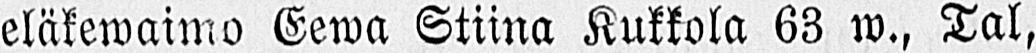eläkewaimo Eewa Stiina Kukkola 63 w., Tal,
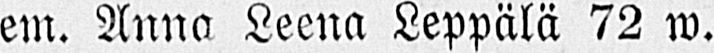em. Anna Leena Leppälä 72 w.
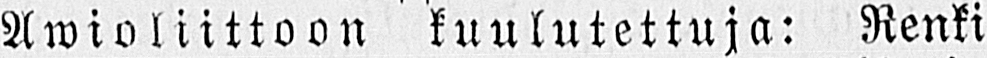Awioliittoon kuulutettuja: Renki
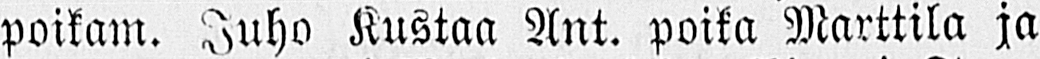poikain. Juho Kustaa Ant. poika Marttila ja
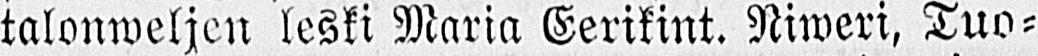talonweljen leski Maria Eerikint. Niweri, Tuo-
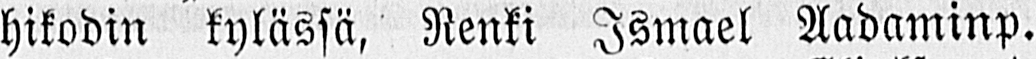hikodin kylässä, Renki Ismael Aadaminp.
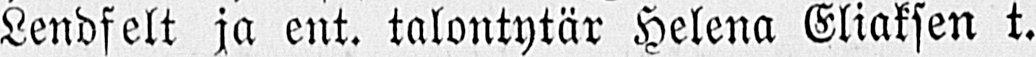Lendfelt ja ent. talontytär Helena Eliaksen t.
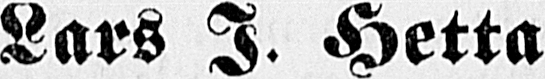Lars J. Hetta.
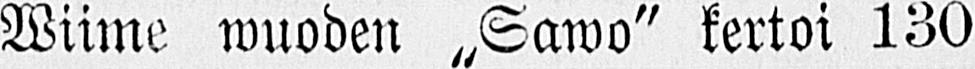Wiime wuoden „Sawo" kertoi 130
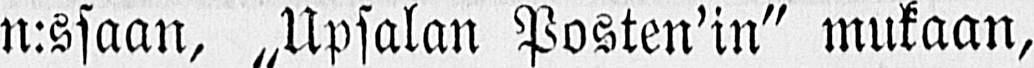n:saan, ˶Upsalan Posten'in" mukaan,
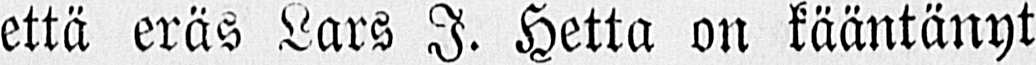että eräs Lars I. Hetta on kääntänyt
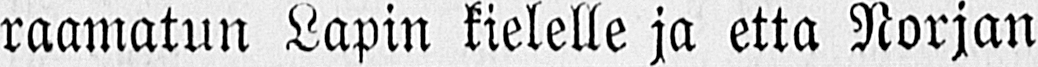raamatun Lapin kielelle ja että Norjan
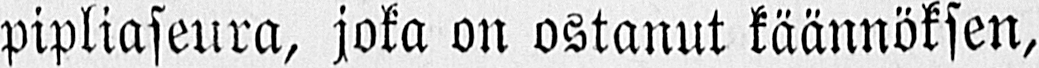pipliaseura, joka on ostanut käännöksen,
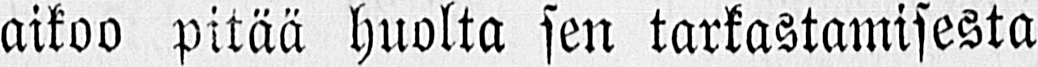aikoo pitää huolta sen tarkastamisesta
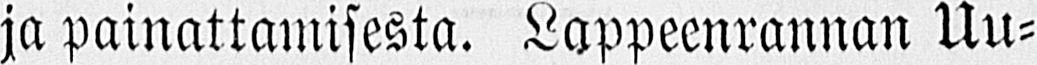ja painattamisesta. Lappeenrannan Uu-
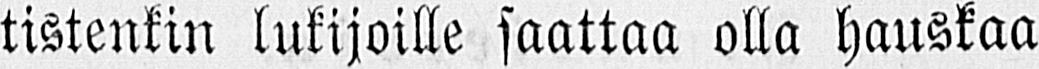tistenkin lukijoille saattaa olla hauskaa
